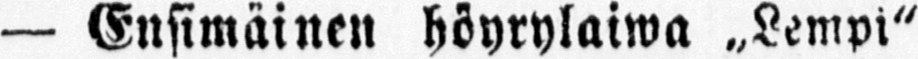— Ensimäinen höyrylaiwa „Lempi"
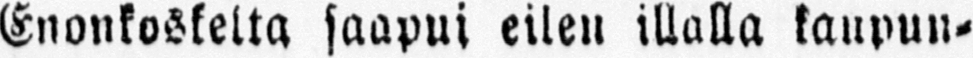Enonkoskelta saapui eilen illalla kaupun-
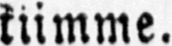kiimme.
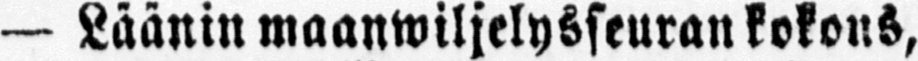— Läänin maanwiljelysseuran kokous,
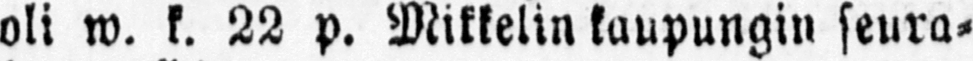oli w. k. 22 p. Mikkelin kaupungin seura-
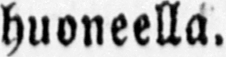huoneella.
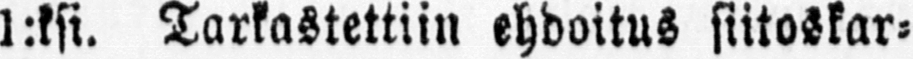1:ksi. Tarkastettiin ehdoitus siitoskar-
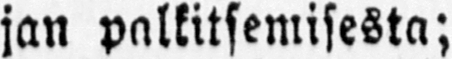jan palkitsemisesta;
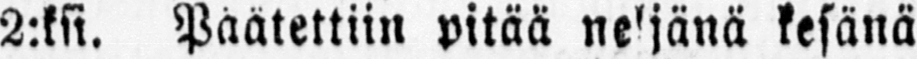2:ksi. Päätettiin pitää neljänä kesänä
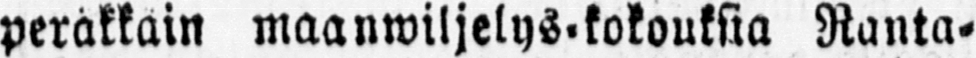peräkkäin maanwiljelys-kokouksia Ranta-
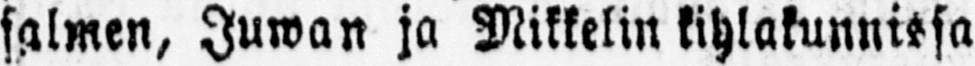salmen, Juwan ja Mikkelin kihlakunnissa
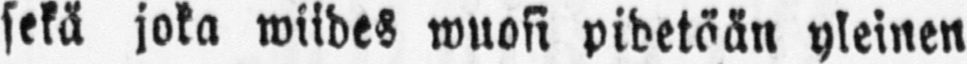sekä joka wiides wuosi pidetään yleinen
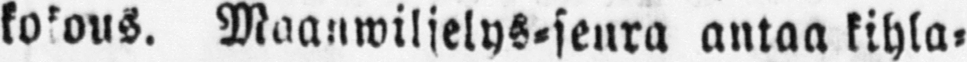kokous. Maanwiljelys-seura antaa kihla-
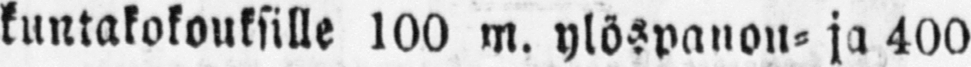kuntakokouksille 100 m. ylöspanon- ja 400
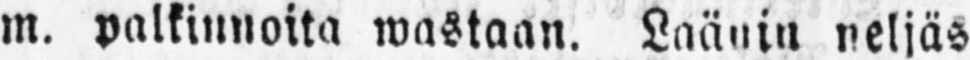m. palkinnolta wastaan. Läänin neljäs
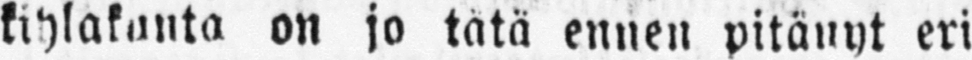kihlakunta on jo tätä ennen pitänyt eri
